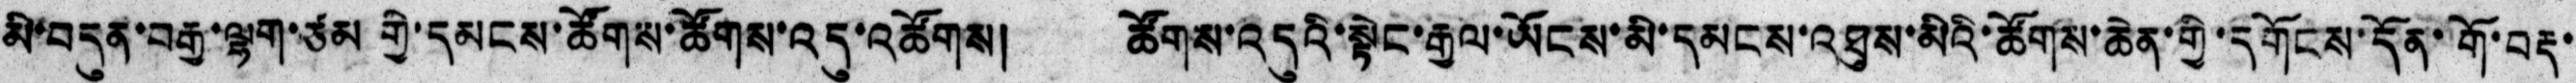མི་བདུན་བརྒྱ་ལྷག་ཙམ གྱི་དམངས་ཚོགས་ཚོགས་འདུ་འཚོགས། ཚོགས་འདུའི་སྟེང་རྒྱལ་ཡོངས་མི་དམངས་འཐུས་མིའི་ཚོགས་ཆེན་གྱི་དགོངས་དོན་གོ་བརྡ་
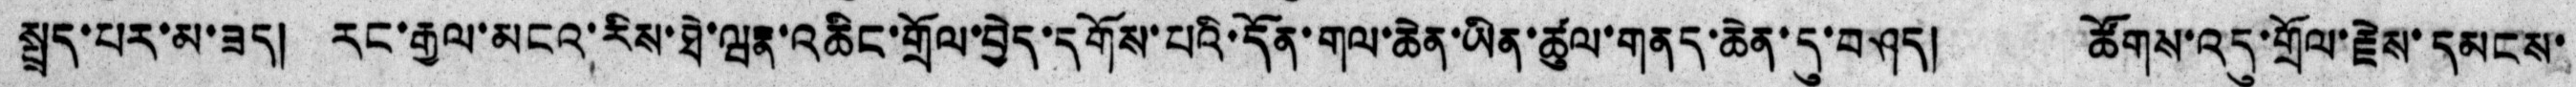སྤྲད་པར་མ་ཟད། རང་རྒྱལ་མངའ་རིས་ཐེ་ཝན་འཆིང་གྲོལ་བྱེད་དགོས་པའི་དོན་གལ་ཆེན་ཡིན་ཚུལ་གནད་ཆེན་དུ་བཤད། ཚོགས་འདུ་གྲོལ་རྗེས་དམངས་
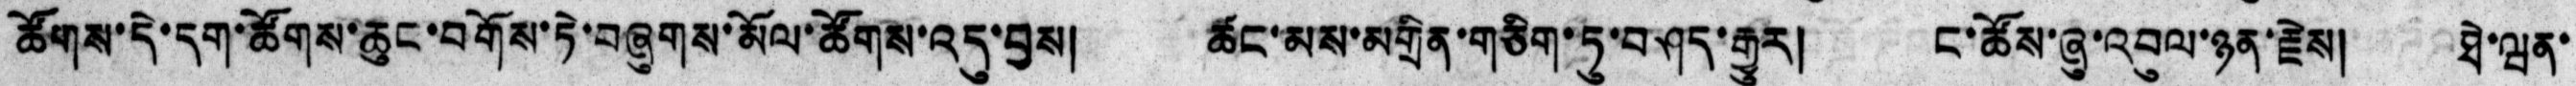ཚོགས་དེ་དག་ཚོགས་ཆུང་བགོས་ཏེ་བཞུགས་མོལ་ཚོགས་འདུ་བྱས། ཚང་མས་མགྲིན་གཅིག་ཏུ་བཤད་རྒྱུར། ང་ཚོས་ཞུ་འབུལ་ཉན་རྗེས། ཐེ་ཝན་
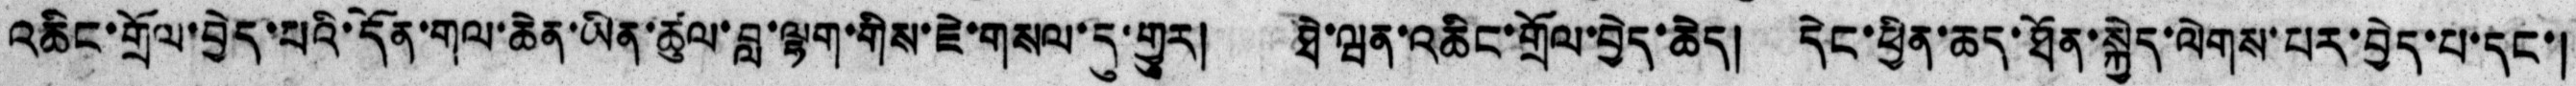འཆིང་གྲོལ་བྱེད་པའི་དོན་གལ་ཆེན་ཡིན་ཚུལ་བླ་ལྷག་གིས་ཇེ་གསལ་དུ་གྱུར། ཐེ་ཝན་འཆིང་གྲོལ་བྱེད་ཆེད། དེང་ཕྱིན་ཆད་ཐོན་སྐྱེད་ལེགས་པར་བྱེད་པ་དང་།
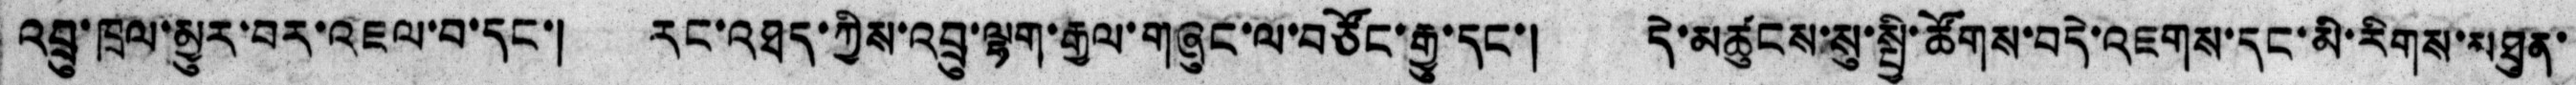འབྲུ་ཁྲལ་མྱུར་བར་འཇལ་བ་དང་། རང་འཐད་ཀྱིས་འབྲུ་ལྷག་རྒྱལ་གཞུང་ལ་བཙོང་རྒྱུ་དང་། དེ་མཚུངས་སུ་སྤྱི་ཚོགས་བདེ་འཇགས་དང་མི་རིགས་མཐུན་
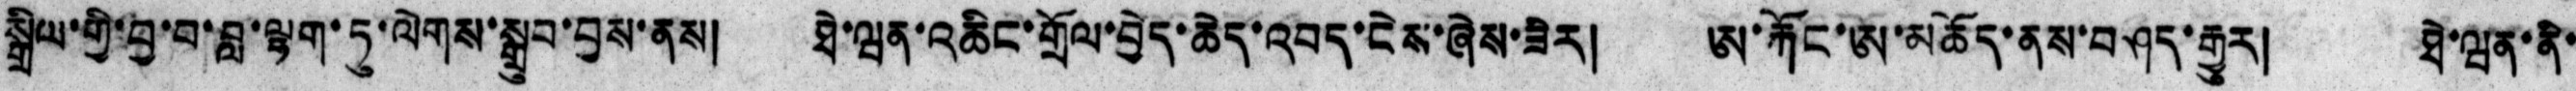སྒྲིལ་གྱི་བྱ་བ་བླ་ལྷག་ཏུ་ལེགས་སྒྲུབ་བྱས་ནས། ཐེ་ཝན་འཆིང་གྲོལ་བྱེད་ཆེད་འབད་ངེས་ཞེས་ཟེར། ཨ་རྐོང་ཨོ་མཆོད་ནས་བཤད་རྒྱུར། ཐེ་ཝན་ནི་
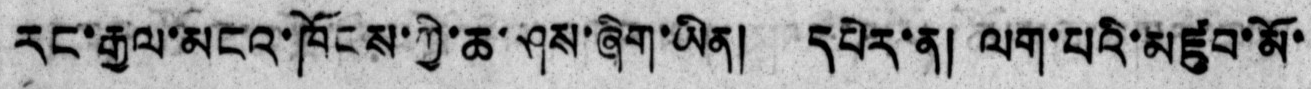རང་རྒྱལ་མངའ་ཁོངས་ཀྱི་ཆ་ཤས་ཞིག་ཡིན། དཔེར་ན། ལག་པའི་མཛུབ་མོ་
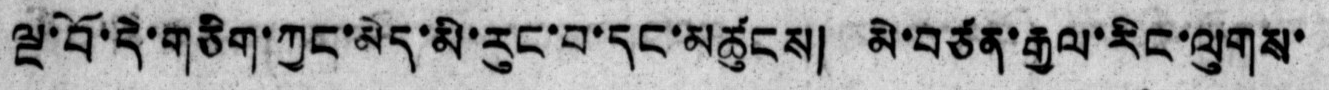ལྔ་བོ་དེ་གཅིག་ཀྱང་མེད་མི་རུང་བ་དང་མཚུངས། མི་བཙན་རྒྱལ་རིང་ལུགས་
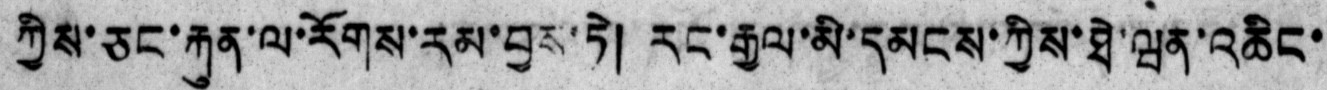ཀྱིས་ཅང་རྐུན་ལ་རོགས་རམ་བྱས་ཏེ། རང་རྒྱལ་མི་དམངས་ཀྱིས་ཐེ་ཝན་འཆིང་
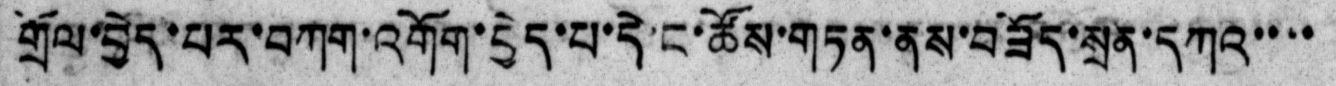གྲོལ་བྱེད་པར་བཀག་འགོག་བྱེད་པ་དེ་ང་ཚོས་གཏན་ནས་བཟོད་སྲན་དཀའ་་་་
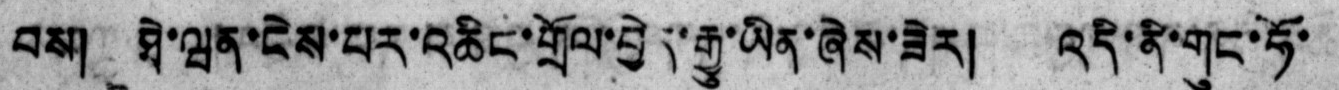བས། ཐེ་ཝན་ངེས་པར་འཆིང་གྲོལ་བྱེད་རྒྱུ་ཡིན་ཞེས་ཟེར། འདི་ནི་གུང་ཧོ་
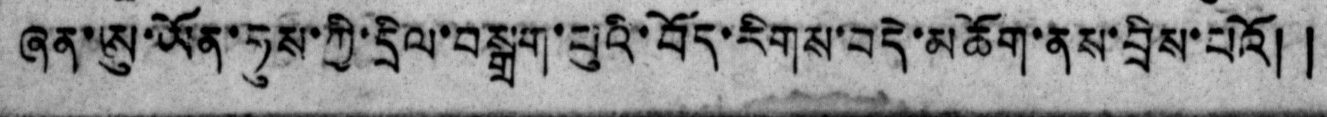ཞན་ཨུ་ཡོན་ཧུས་ཀྱི་དྲིལ་བསྒྲག་པུའི་བོད་རིགས་བདེ་མཆོག་ནས་བྲིས་པའོ། །
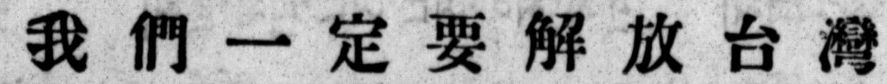我 們 一 定 要 解 放 台 灣
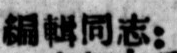編輯同志：
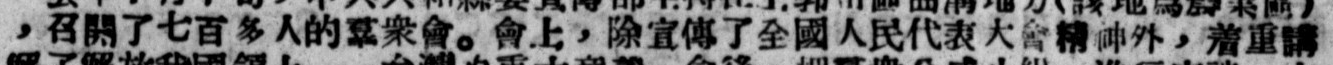，召開了七百多人的羣衆會。會上，除宣傳了全國人民代表大會精神外，着重講
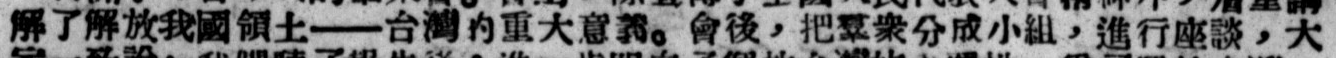解了解放我國領土——台灣的重大意義。會後，把羣衆分成小組，進行座談，大
